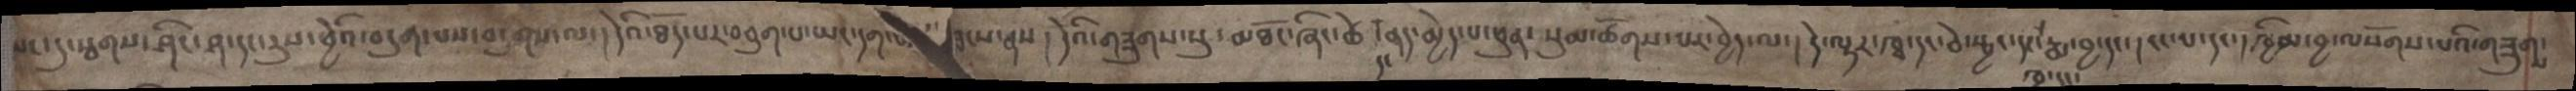པང་དུ་སྦགས་ཤིང་ཤ་དང་རུས་ཕྱེའི་བདུག་པས་བདུགས་ལ་། དེའི་ཐོད་པར་བཅུག་པ་ཡང་དག་པར་བླངས་ནས། དེའི་གཟུགས་སུ་མཐོང་ཞིང་ཚེ་དང་ནད་མྱེད་པ་ཕུན་སུམ་ཚོགས་པར་བྱེད་ལ་། དེ་ལྟར་ཁྭ་དང་ཅེ་སྤྱང་དང་ཁྭ་དང་རྨ་བྱ་དང་།ངང་པ་དང་།ཁྱིམ་བྱ་ལསོགས་པའི་གཟུགས་
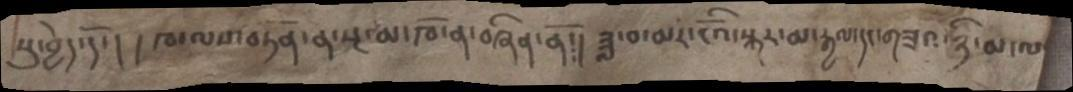སུ་བྱེད་དོ་། །ཁ་ལས་བཏོན་ན་སྔ་མ་ཁོ་ན་བཞིན་ནོ༴། ཟླ་བ་མར་ངོའི་སྐར་མ་རྒྱལ་དང་གཟའ་ཉི་མ་ལ་
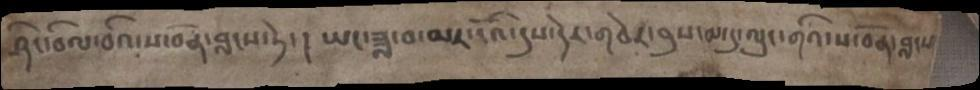ཤིང་བིལ་བའི་ས་བོན་བླངས་ཏེ་། ཡང་ཟླ་བ་མར་ངོའི་དུས་དེར་གཅེར་བུས་མ་དུ་ལུང་གའི་ས་བོན་བླངས
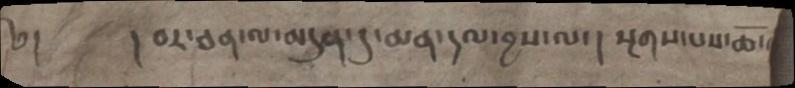༄།  །བར་ཅན་ལ་མདུན་དུ་མན་དལ་བྱས་ལ་། སྔགས་པས་ཆོ་
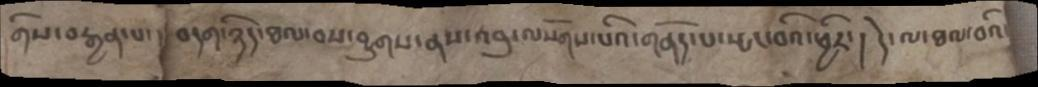གིས་བརྒྱན་པ་དེ་བདག་ཉིད་ཐལ་བས་བྱུགས་ནས་འབུ་ལསོགས་པའི་གནོད་པ་སྤང་བའི་ཕྱིར་། དེ་ལ་ཐལ་བའི་
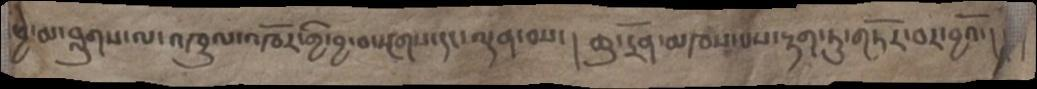ཕྱེ་མ་བླུགས་ལ་འཁྲུལ་འཁོར་གྱི་བྱ་བ་སྔགས་དང་ལྡན་བས་། ཆུ་དྲོན་མཁས་པས་རྟག་ཏུ་གཏོར་བར་བྱའོ་། །
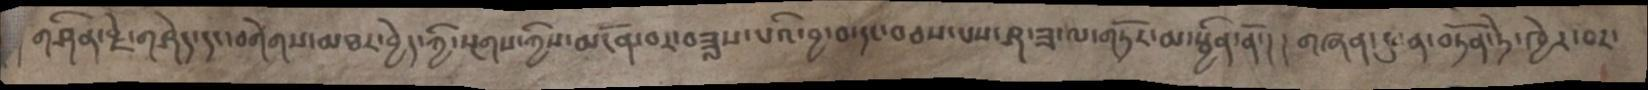གཤིན་རྗེ་གཤེད་དང་བགེགས་མཐར་བྱེད་ཀྱི་སྔགས་ཀྱིས་མངོན་པར་བཟླས་པའི་བྱ་བ་དང་བཅས་པས་ཤ་ཟ་ལ་གཏོར་མ་སྦྱིན་ནོ་། །གཞན་དུ་ན་བཏོན་ཏེ་ཁྱེར་བར་
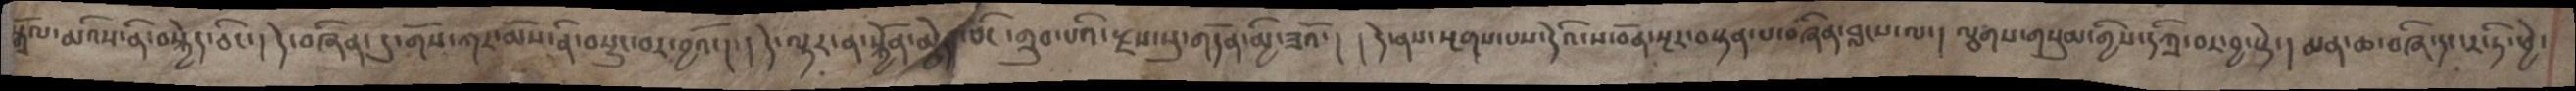སྒྲོལ་མའིས་ནི་བསྐྱེད་ཅིང་། དེ་བཞིན་དུ་གོས་ཀར་མོས་ནི་བསྲུང་བར་བྱའོ་། །དེ་ལྟར་ན་སྐྱོན་མེད་ཅིང་གྲུབ་པའི་རྫས་སུ་གདོན་མྱི་ཟའོ་། །དེ་ནས་སྔགས་པས་དེའི་ས་བོན་སྔར་བསྟན་པ་བཞིན་བླངས་ལ་། ལྕགས་གསུམ་གྱིས་དཀྲི་བར་བྱ་སྟེ་། མན་ཆ་བཞི་དང་ར་ཏི་ཕྱེ་
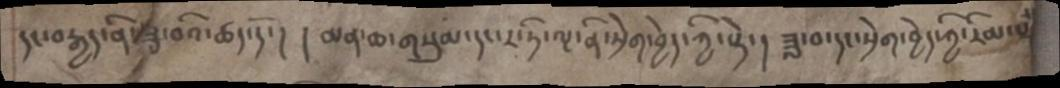དང་བརྒྱད་ནི་ཟླ་བའི་ཚད་དོ་། །མན་ཆ་གསུམ་དང་ར་ཏི་ལྔ་ནི་སྲེག་བྱེད་ཀྱི་སྟེ་། ཟླ་བ་དང་སྲེག་བྱེད་ཀྱི་རིམ་པ་
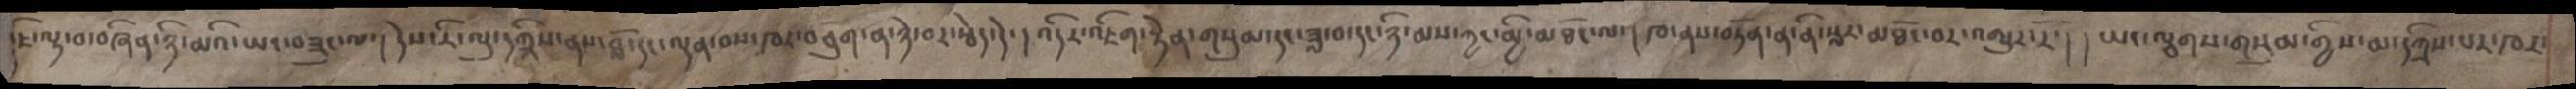ཇི་ལྟ་བ་བཞིན་ཉི་མའི་ཡང་བཟུང་ལ་། དེས་རི་ལུ་དཀྲིས་ནས་བློ་དང་ལྡན་བས་ཁར་བཅུག་ན་ཉེ་བར་རྩེད་དེ་།འདིར་འཇིག་རྟེན་གསུམ་དང་ཟླ་བ་དང་ཉི་མས་ཀྱང་མྱི་མཐོང་ལ་། ཁ་ནས་བཏོན་ན་ནི་སླར་མཐོང་བར་འགྱུར་རོ་། །ཡང་ལྕགས་གསུམ་གྱིས་མ་དཀྲིས་པར་ཁར་
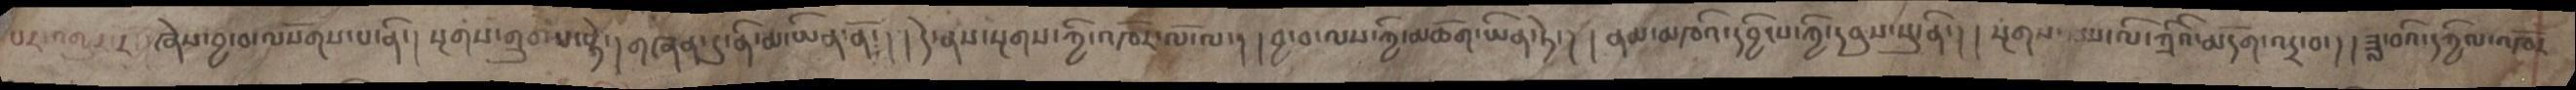པར་འགྱུར་རོ།ཞེས་བྱ་བ་ལསོགས་པ་ནི་། སྔགས་གྲུབ་པ་སྟེ། གཞན་དུ་ནི་མ་ཡིན་ནོ་།།དེ་ནས་སྔགས་ཀྱི་འཁོར་ལོ་ལ་། །བྱ་བ་ལས་ཀྱི་མཆོག་ཡིན་ཏེ་། །ནམ་མཁའ་དབྱིངས་ཀྱི་དབུས་སུ་ནི་། །སྔགས་པ་ལི་ཀྲིའི་མདོག་འདྲ་བ་། །ཟླ་བའི་དཀྱིལ་འཁོར་
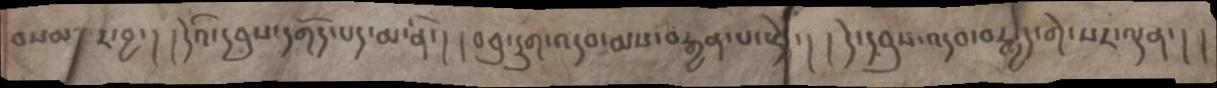བསམ་པར་བྱ་། །དེའི་དབུས་དགོད་པད་མ་ནི་། །བཅུ་དྲུག་འདབ་མས་བརྒྱན་པ་སྟེ་། །དེ་དབུས་འདབ་བརྒྱད་གེ་སར་ལྡན་། །
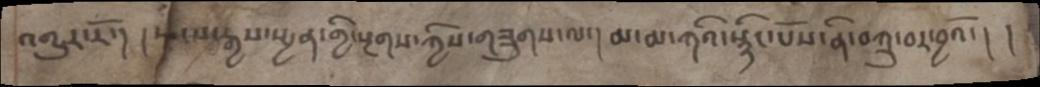འགྱུར་རོ་། །སངས་རྒྱས་སྤྱན་གྱི་སྔགས་ཀྱིས་གཟུགས་ལ་།  མ་མ་ཀའི་སྙིང་པོས་ནི་བཀྲུ་བར་བྱའོ་། །
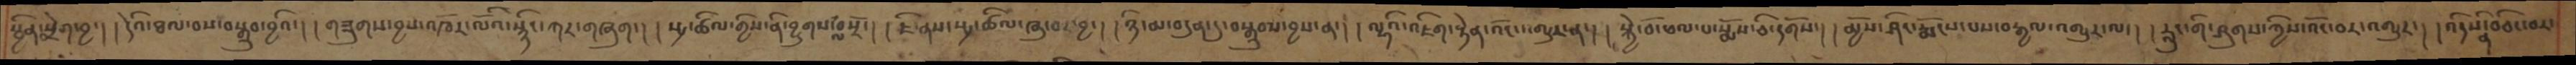སྦྱིན་སྲེག་བྱ་། །དེའི་ཐལ་བས་བསྒྲུབ་བྱའི་། །གཟུགས་བྱས་འཁོར་ལོའི་སྙིང་ཀར་གཞུག་། །སྤྲ་ཚིལ་གྱིས་ནི་བྱུགས་ལ་བསྲོ་། །ཇི་ནས་སྤྲ་ཚིལ་ཁུ་བར་བྱ་། །ཉི་མ་བདུན་དུ་བསྒྲུབས་བྱས་ན་། །ལྷའི་འཇིག་རྟེན་འོང་འགྱུར་ན་། །སྐྱེ་བོ་ཕལ་པ་སྨོས་ཅི་དགོས་། །མྱོས་ཤིང་རྨོངས་པས་བརྒྱལ་འགྱུར་ལ་། །རླུང་གི་ཤུགས་ཀྱིས་འོང་བར་འགྱུར་། །འདིས་ནི་བཅིང་བར་
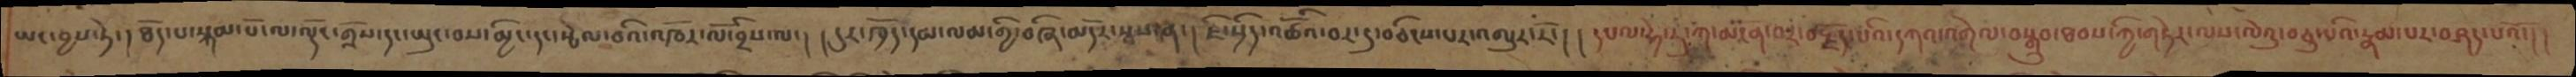ཡང་བྱས་ཏེ་།ཐོད་པ་སྐམ་པོ་ལ་ལྡོང་གྲོས་དང་སྤུང་བས་མྱིང་དང་སྤེལ་བའི་འཁོར་ལོ་བྲིས་ལ་། །དུར་ཁྲོད་དམ་ལམ་གྱི་བཞི་མདོར་སྦས་ན་། ཇི་སྲིད་འཚོའི་བར་དུ་བཅིངས་པར་འགྱུར་རོ་། །དཔལ་ཧེ་རུ་ཀ་མངོན་བར་བརྗོད་པའི་དཀའ་འགྲེལ་བསྒྲུབ་ཐབས་ཀྱི་གཏེར་ལས་ལེའུ་བཅུ་པའི་རྣམ་པར་བཤད་པའོ་།།
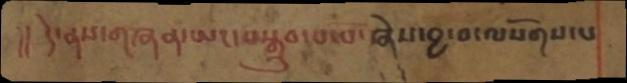།། དེ་ནས་གཞན་ཡང་བསྒྲུབ་པ་པོ་ཞེས་བྱ་བ་ལསོགས་པ་
